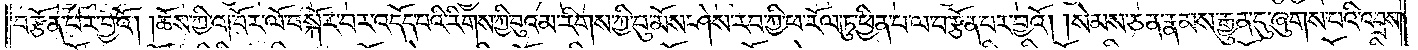བརྩོན་པར་བྱའོ། །ཆོས་ཀྱི་འཁོར་ལོ་བསྐོར་བར་འདོད་པའི་རིགས་ཀྱི་བུའམ་རིགས་ཀྱི་བུ་མོས་ཤེས་རབ་ཀྱི་ཕ་རོལ་ཏུ་ཕྱིན་པ་ལ་བརྩོན་པར་བྱའོ། །སེམས་ཅན་རྣམས་རྒྱུན་དུ་ཞུགས་པའི་འབྲས་
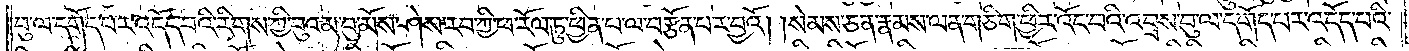བུ་ལ་དགོད་པར་འདོད་པའི་རིགས་ཀྱི་བུའམ་རིགས་ཀྱི་བུ་མོས་ཤེས་རབ་ཀྱི་ཕ་རོལ་ཏུ་ཕྱིན་པ་ལ་བརྩོན་པར་བྱའོ། །སེམས་ཅན་རྣམས་ལན་གཅིག་ཕྱིར་འོང་བའི་འབྲས་བུ་ལ་དགོད་པར་འདོད་པའི་
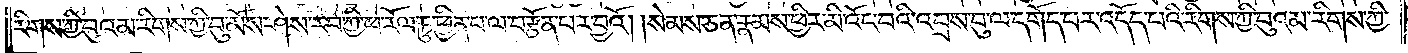རིགས་ཀྱི་བུའམ་རིགས་ཀྱི་བུ་མོས་ཤེས་རབ་ཀྱི་ཕ་རོལ་ཏུ་ཕྱིན་པ་ལ་བརྩོན་པར་བྱའོ། །སེམས་ཅན་རྣམས་ཕྱིར་མི་འོང་བའི་འབྲས་བུ་ལ་དགོད་པར་འདོད་པའི་རིགས་ཀྱི་བུའམ་རིགས་ཀྱི་
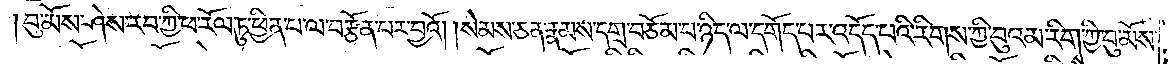བུ་མོས་ཤེས་རབ་ཀྱི་ཕ་རོལ་ཏུ་ཕྱིན་པ་ལ་བརྩོན་པར་བྱའོ། །སེམས་ཅན་རྣམས་དགྲ་བཅོམ་པ་ཉིད་ལ་དགོད་པར་འདོད་པའི་རིགས་ཀྱི་བུའམ་རིགས་ཀྱི་བུ་མོས་
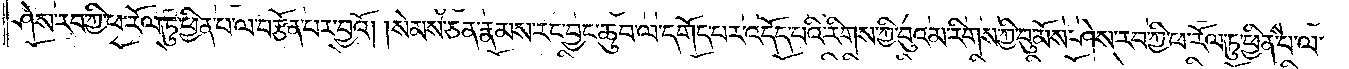ཤེས་རབ་ཀྱི་ཕ་རོལ་ཏུ་ཕྱིན་པ་ལ་བརྩོན་པར་བྱའོ། །སེམས་ཅན་རྣམས་རང་བྱང་ཆུབ་ལ་དགོད་པར་འདོད་པའི་རིགས་ཀྱི་བུའམ་རིགས་ཀྱི་བུ་མོས་ཤེས་རབ་ཀྱི་ཕ་རོལ་ཏུ་ཕྱིན་པ་ལ་
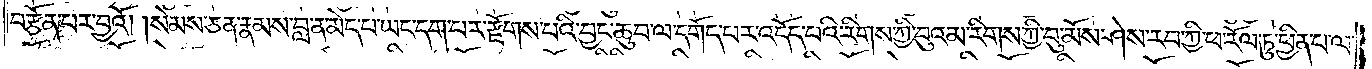བརྩོན་པར་བྱའོ། །སེམས་ཅན་རྣམས་བླ་ན་མེད་པ་ཡང་དག་པར་རྫོགས་པའི་བྱང་ཆུབ་ལ་དགོད་པར་འདོད་པའི་རིགས་ཀྱི་བུའམ་རིགས་ཀྱི་བུ་མོས་ཤེས་རབ་ཀྱི་ཕ་རོལ་ཏུ་ཕྱིན་པ་ལ་
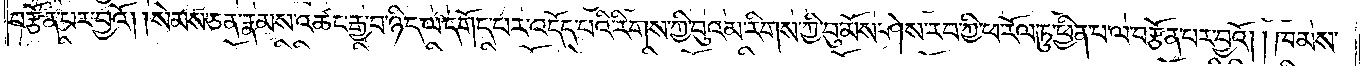བརྩོན་པར་བྱའོ། །སེམས་ཅན་རྣམས་འཚང་རྒྱ་བ་ཉིད་ལ་དགོད་པར་འདོད་པའི་རིགས་ཀྱི་བུའམ་རིགས་ཀྱི་བུ་མོས་ཤེས་རབ་ཀྱི་ཕ་རོལ་ཏུ་ཕྱིན་པ་ལ་བརྩོན་པར་བྱའོ། །ཁམས་
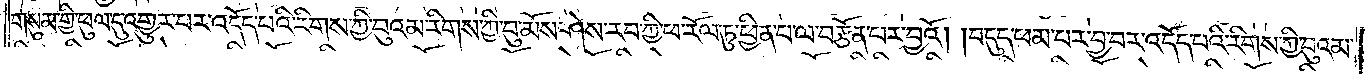གསུམ་གྱི་ཕུལ་དུ་འགྱུར་པར་འདོད་པའི་རིགས་ཀྱི་བུའམ་རིགས་ཀྱི་བུ་མོས་ཤེས་རབ་ཀྱི་ཕ་རོལ་ཏུ་ཕྱིན་པ་ལ་བརྩོན་པར་བྱའོ། །བདུད་ཕམ་པར་བྱ་བར་འདོད་པའི་རིགས་ཀྱི་བུའམ་
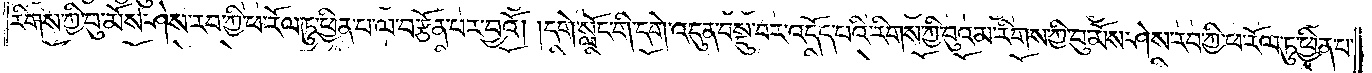རིགས་ཀྱི་བུ་མོས་ཤེས་རབ་ཀྱི་ཕ་རོལ་ཏུ་ཕྱིན་པ་ལ་བརྩོན་པར་བྱའོ། །དགེ་སློང་གི་དགེ་འདུན་བསྡུ་བར་འདོད་པའི་རིགས་ཀྱི་བུའམ་རིགས་ཀྱི་བུ་མོས་ཤེས་རབ་ཀྱི་ཕ་རོལ་ཏུ་ཕྱིན་པ་
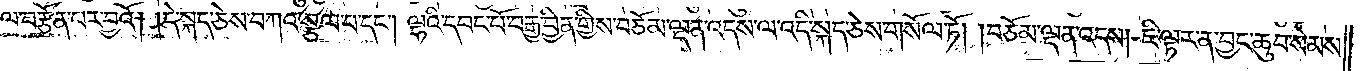ལ་བརྩོན་པར་བྱའོ། །དེ་སྐད་ཅེས་བཀའ་སྩལ་པ་དང༌། ལྷའི་དབང་པོ་བརྒྱ་བྱིན་གྱིས་བཅོམ་ལྡན་འདས་ལ་འདི་སྐད་ཅེས་གསོལ་ཏོ། །བཅོམ་ལྡན་འདས། ཇི་ལྟར་ན་བྱང་ཆུབ་སེམས་
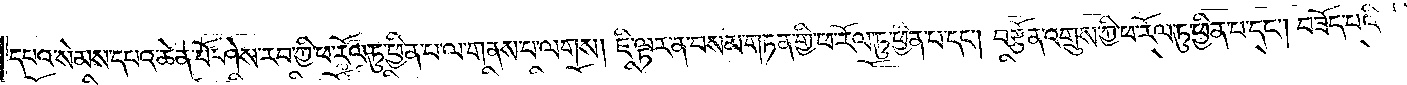དཔའ་སེམས་དཔའ་ཆེན་པོ་ཤེས་རབ་ཀྱི་ཕ་རོལ་ཏུ་ཕྱིན་པ་ལ་གནས་པ་ལགས། ཇི་ལྟར་ན་བསམ་གཏན་གྱི་ཕ་རོལ་ཏུ་ཕྱིན་པ་དང༌། བརྩོན་འགྲུས་ཀྱི་ཕ་རོལ་ཏུ་ཕྱིན་པ་དང༌། བཟོད་པའི་
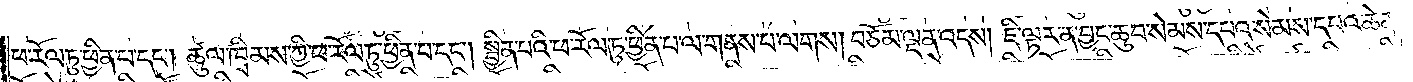ཕ་རོལ་ཏུ་ཕྱིན་པ་དང༌། ཚུལ་ཁྲིམས་ཀྱི་ཕ་རོལ་ཏུ་ཕྱིན་པ་དང༌། སྦྱིན་པའི་ཕ་རོལ་ཏུ་ཕྱིན་པ་ལ་གནས་པ་ལགས། བཅོམ་ལྡན་འདས། ཇི་ལྟར་ན་བྱང་ཆུབ་སེམས་དཔའ་སེམས་དཔའ་ཆེན་
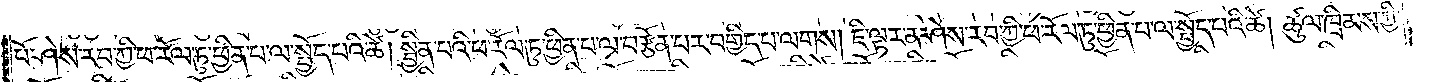པོ་ཤེས་རབ་ཀྱི་ཕ་རོལ་ཏུ་ཕྱིན་པ་ལ་སྤྱོད་པའི་ཚེ། སྦྱིན་པའི་ཕ་རོལ་ཏུ་ཕྱིན་པ་ལ་བརྩོན་པར་བགྱིད་པ་ལགས། ཇི་ལྟར་ན་ཤེས་རབ་ཀྱི་ཕ་རོལ་ཏུ་ཕྱིན་པ་ལ་སྤྱོད་པའི་ཚེ། ཚུལ་ཁྲིམས་ཀྱི་
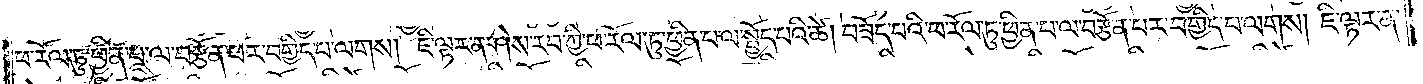ཕ་རོལ་ཏུ་ཕྱིན་པ་ལ་བརྩོན་པར་བགྱིད་པ་ལགས། ཇི་ལྟར་ན་ཤེས་རབ་ཀྱི་ཕ་རོལ་ཏུ་ཕྱིན་པ་ལ་སྤྱོད་པའི་ཚེ། བཟོད་པའི་ཕ་རོལ་ཏུ་ཕྱིན་པ་ལ་བརྩོན་པར་བགྱིད་པ་ལགས། ཇི་ལྟར་ན་
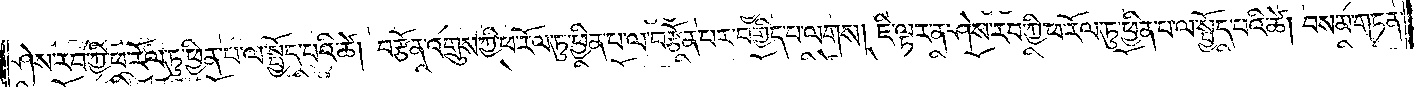ཤེས་རབ་ཀྱི་ཕ་རོལ་ཏུ་ཕྱིན་པ་ལ་སྤྱོད་པའི་ཚེ། བརྩོན་འགྲུས་ཀྱི་ཕ་རོལ་ཏུ་ཕྱིན་པ་ལ་བརྩོན་པར་བགྱིད་པ་ལགས། ཇི་ལྟར་ན་ཤེས་རབ་ཀྱི་ཕ་རོལ་ཏུ་ཕྱིན་པ་ལ་སྤྱོད་པའི་ཚེ། བསམ་གཏན་
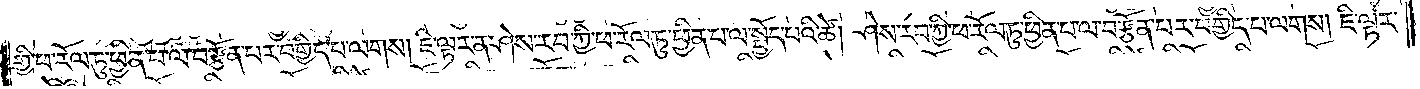གྱི་ཕ་རོལ་ཏུ་ཕྱིན་པ་ལ་བརྩོན་པར་བགྱིད་པ་ལགས། ཇི་ལྟར་ན་ཤེས་རབ་ཀྱི་ཕ་རོལ་ཏུ་ཕྱིན་པ་ལ་སྤྱོད་པའི་ཚེ། ཤེས་རབ་ཀྱི་ཕ་རོལ་ཏུ་ཕྱིན་པ་ལ་བརྩོན་པར་བགྱིད་པ་ལགས། ཇི་ལྟར་
